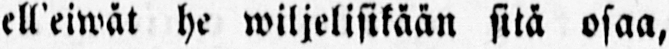ell'eiwät he wiljelisikään sitä osaa,
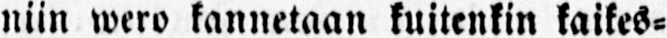niin wero kannetaan kuitenkin kaikes-
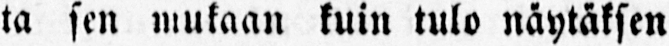ta sen mukaan kuin tulo näytäksen
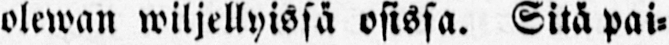olewan wiljellyissä osissa. Sitä pai-
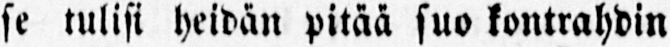se tulisi heidän pitää suo kontrahdin
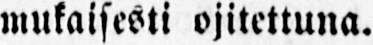mukaisesti ojitettuna.
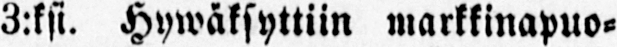3:ksi. Hywäksyttiin markkinapuo-
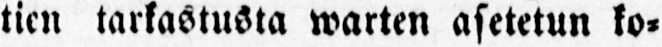tirn tarkastusta warten asetetun ko-
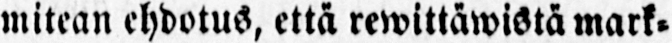mitean ehdotus, että rewittäwistä mark-
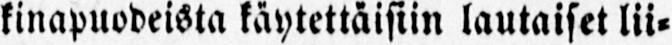kinapuodeista käytettäisiin lautaiset lii-
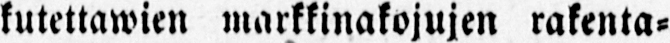kutettawien markkinakojujen rakenta-
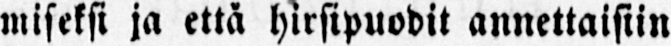miseksi ja että hirsipuodit annettaisiin
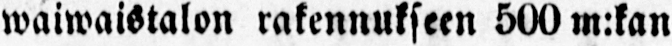waiwaistalon rakennukseen 500m:kan
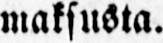maksusta.
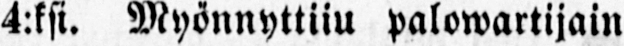4:ksi. Myönnyttiiu palowartijain
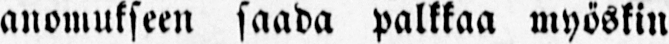anomukseen saada palkkaa myöskin
